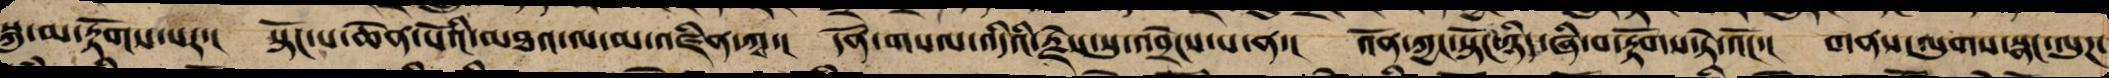སྐུ་མ་རྟོགས་པར་། སྟོང་པ་ཆེན་པོའི་མཐའ་ལ་མ་འཛིན་ཀྭ་། དོན་གསལ་འདིའི་རྗེས་སུ་འབྲེངས་པ་ན་། འོན་ཀྱང་སྟོང་ཉིད་ཞི་བ་རྟོགས་ཏེ་འོང་། གནས་ལུགས་སྣང་ལུཌ་
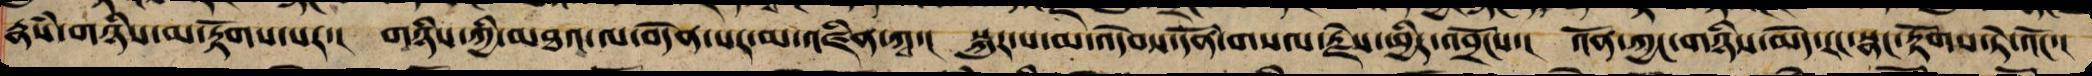རྣཾས་གཉིས་མ་རྟོགས་པར་། གཉིས་ཀྱི་མཐའ་ལ་བདེན་པར་མ་འཛིན་ཀྭ་། སྐུར་པ་མ་འདེབས་དོན་གསལ་རྗེས་ཕྱིར་འབྲོངས་། འོན་ཀྱང་གཉིས་མེད་རང་སྣང་རྟོགས་ཏེ་འོང་།
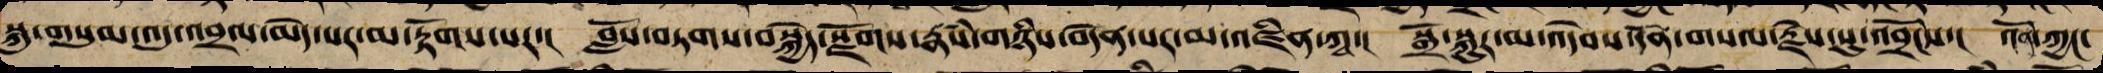སྐུ་གསུམ་འདུ་འབྲལ་མེད་པར་མ་རྟོགས་པར་། བློས་བཏགས་བསྐྱེད་སྫོགས་རྣཾས་གཉིས་བདེན་པར་མ་འཛིན་ཀྭ་། སྒྲོ་སྐུར་མ་འདེབས་དོན་གསལ་རྗེས་སུ་འབྲོངས་། འོན་ཀྱང་
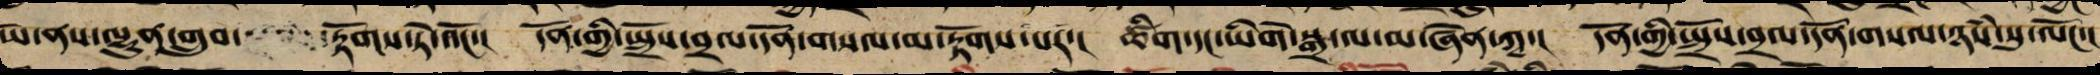ཡེ་ནས་ལྷུན་གྲུབ་ རྟོགས་ཏེ་འོང་། དོན་གྱི་སྤྲོས་བྲལ་དོན་གསལ་མ་རྟོགས་པར་། ཚིག་དང་ཡིགེ་སྒྲ་ལ་མ་ཞེན་ཀྭ་། དོན་གྱི་སྤྲོས་བྲལ་དོན་གསལ་ཉཾས་སུ་ལོང་།
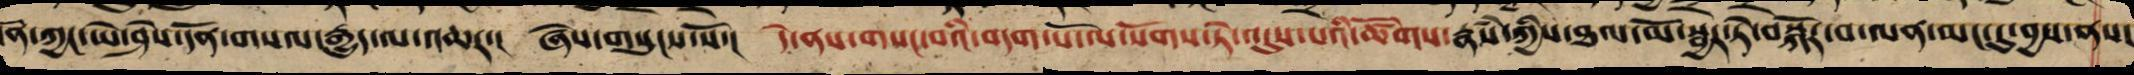ན་ཀྱང་ཡེ་ཤེས་དོན་གསལ་རྒྱུད་ལ་འཆར་། ཞེས་གསུངས་སོ་། དེ་ནས་གསང་བའི་བདག་པོ་ལ་སོགས་ཏེ་འདུས་པའི་ཚོགས་རྣཾས་ཀྱིས་ཐལ་མོ་སྦྱར་ཏེ་བསྐོར་བ་ལན་མང་དུ་བྱས་ནས།
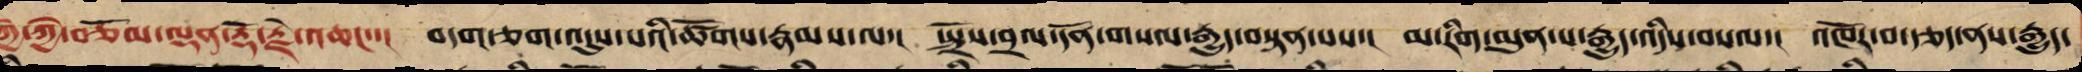ཀྱེ་ཀྱེ་བཅོམ་ལྡན་རྡོ་རྗེ་འཆང་་། བདག་ཅག་འདུས་པའི་ཚོགས་རྣམས་ལ་། སྤྲོས་བྲལ་དོན་གསལ་རྒྱུད་བསྟན་པས་། མ་རིག་མུན་པ་རྒྱུད་འདིས་བསལ་། འཁོར་བ་རྩད་ནས་རྒྱུད་
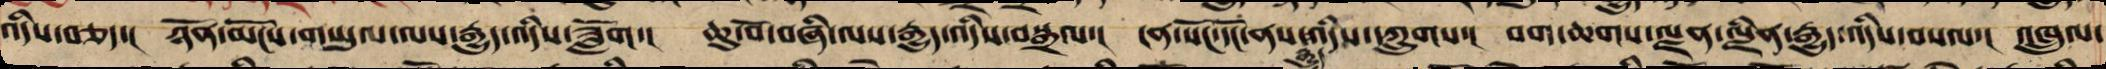འདིས་བཅད་། ཉོན་མོངས་གཡུལ་ལས་རྒྱུད་འདིས་ཟློག་། ཆུ་བོ་བཞི་ལས་རྒྱུད་འདིས་བསྒྲལ་། ངན་སོང་དོང་ནས་འདིས་དཀྲུགས་། བག་ཆགས་ལྗན་ལྗིན་རྒྱུད་འདིས་བསལ་། འཁྲུལ་
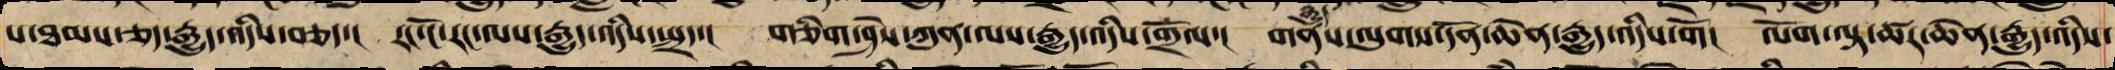པ་ཐམས་ཅད་རྒྱུད་འདིས་བཅད་། རང་ངོ་རང་ལས་རྒྱུད་འདིས་སྤྲད་། གཅིག་ཤེས་ཀུན་ལས་རྒྱུད་འདིས་གྲོལ་། གནས་ལུགས་དོན་ཆེན་རྒྱུད་འདིས་གོ། ལོག་ལྟ་ཚར་ཆེན་རྒྱུད་འདིས་
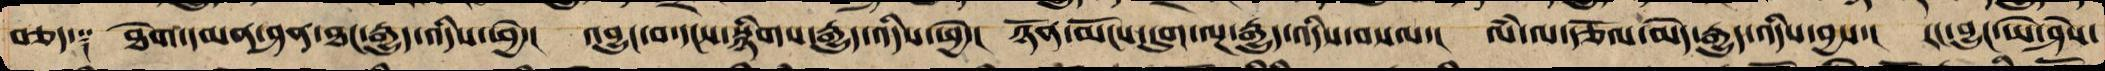བཅད་༑ ཐེག་དམན་ཤན་ཐང་རྒྱུད་འདིས་ཕྱེ་། འབྱུང་བ་དངས་སྙིགས་རྒྱུད་འདིས་ཕྱེ་། ཉོན་མོངས་དུག་ལྔ་རྒྱུད་འདིས་བསལ་། ལཾ་ལ་རྩོལ་མེད་རྒྱུད་འདིས་བྱས་། རང་བྱུང་ཡེ་ཤེས་
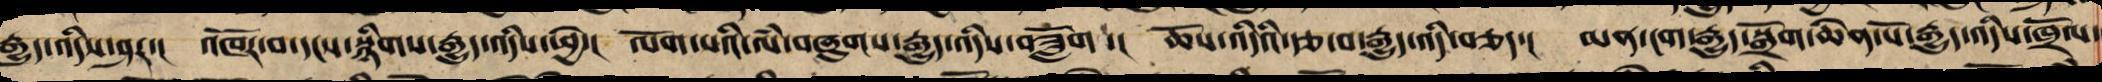རྒྱུད་འདིས་ཤར་། འཁོར་བ་དངས་སྙིགས་རྒྱུད་འདིས་ཕྱེ་། ལོག་པའི་ལཾ་བཞུགས་རྒྱུད་འདིས་བཟློག ་། ཆོས་འདིའི་རྩ་བ་རྒྱུད་འདི་བཅད་། མན་ངག་རྒྱུད་སྒྲོག་ཆེན་པོ་རྒྱུད་འདིས་ཁྲོལ་
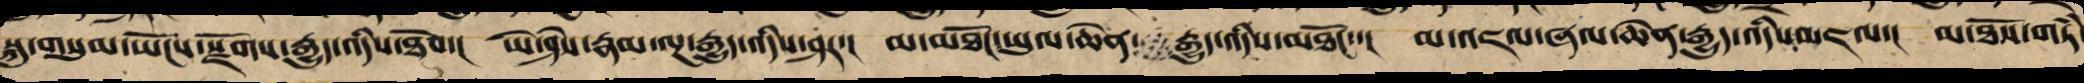སྐུ་གསུམ་ཡོངས་སྫོགས་རྒྱུད་འདིས་ཐོབ་། ཡེ་ཤེས་རྣམ་ལྔ་རྒྱུད་འདིས་ཤར་། མ་མཐོང་ཡུལ་ཆེན་ རྒྱུད་འདིས་མཐོང་་། མ་མཇལ་ཞལ་ཆེན་རྒྱུད་འདིས་མཇལ་། མ་ཐོས་གཏཾ་
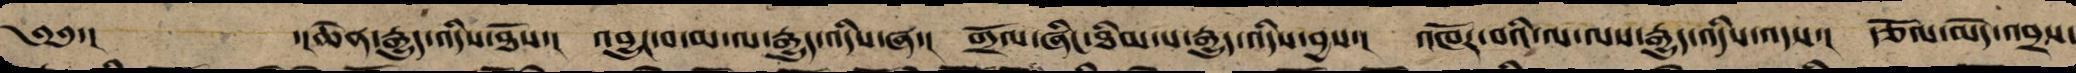༄༅་། ་།ཆེན་རྒྱུད་འདིས་ཐོས་། འབྱུང་བ་མ་ལ་རྒྱུད་འདིས་ཞ་། གྲོལ་ཞིང་ཐིམ་པ་རྒྱུད་འདིས་བྱས་། འཁོར་བའི་ལ་ལས་རྒྱུད་འདིས་བདས་། རྩོལ་མེད་འབྲས་
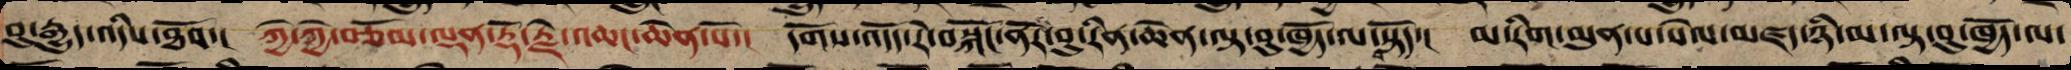བུ་རྒྱུད་འདིས་ཐོབ་། ཀྱེ་ཀྱེ་བཅོམ་ལྡན་རྡོ་རྗེ་འཆང་ཆེན་པོ་། དགོས་འདོད་རེ་བསྐོང་ནོར་བུ་རིན་ཆེན་ལྟ་བུ་ཁྱོད་ལ་སྟོད་། མ་རིག་མུན་པ་སེལ་མཛད་ཉི་མ་ལྟ་བུ་ཁྱོད་ལ་
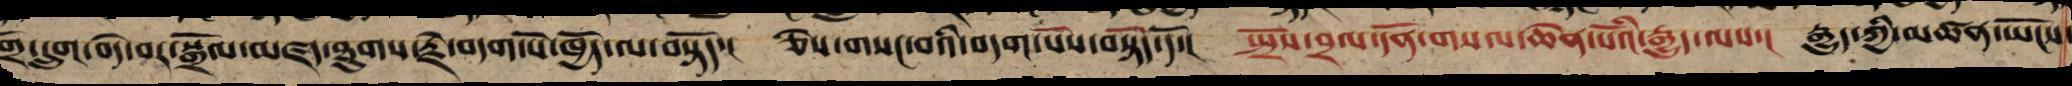གྲོ་དྲུག་བདེ་བར་སྒྲོལ་མཛད་ཐུགས་རྗེ་བདག་པོ་ཁྱོད་ལ་བསྟོད་། ཅེས་གསང་བའི་བདག་པོས་བསྟོད་དོ་། སྤྲོས་བྲལ་དོན་གསལ་ཆེན་པོའི་རྒྱུད་ལས་། རྒྱུད་ཀྱི་མཚན་ཡོངས་
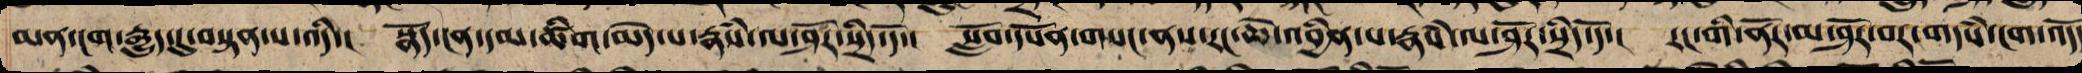མན་ངག་རྒྱུད་དུ་བསྟན་པ་འདི་། སྣོད་ངན་དམ་ཚིག་མེད་པ་རྣཾས་ལ་ཤོར་སྲིད་དོ་། སློབ་དཔོན་གསང་ནས་རང་ཆེ་འབྱིན་པ་རྣཾས་ལ་ཤོར་སྲིད་དོ་། རང་གི་ནོར་མ་ཤོར་བར་གདཾས་ངག་འདོད
